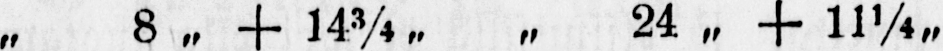„ 8 „ + 14 ¾ „ „ 24 „ + 11¼„
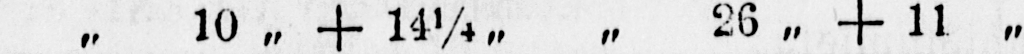„ 10 „ + 14¼„ „ 26 „ + 11 "
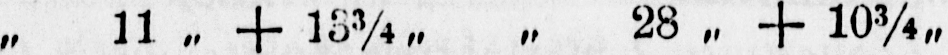„ 11 „ + 13 ¾ „ „ 28 „ + 10 ¾ „
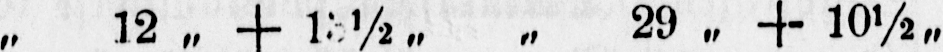„ 12 „ + 13½„ „ 29 „ + 10½ "
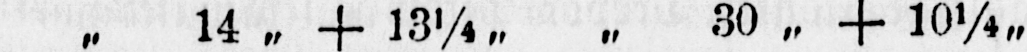„ 14 „ + 13 ¼„ „ 30 „ + 10 ¼ „
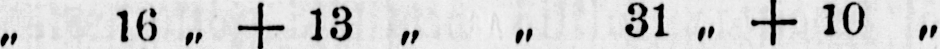„ 16 „ + 13 „ „ 31 „ + 10 „
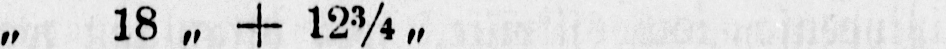„ 18 „ + 12 ¾ „
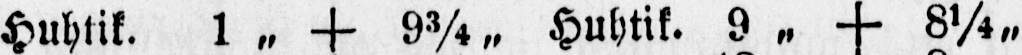Huhtik. 1 „ + 9 „¾ Huhtik. 9 „ + 8¼ „
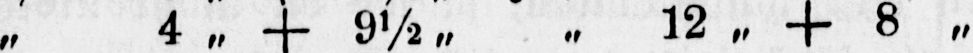„ 4 „ + 9 ½ „ „ 12 „ + 8 „
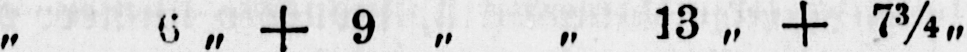„ 6 „ + 9 „ „ 13 „ + 7 ¾ „
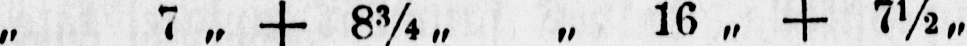„ 7 „ + 8 ¾ „ „ 16 „ + 7½ „
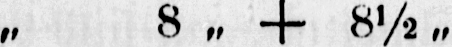„ 8 „ + 8½„
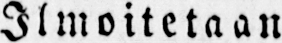Ilmoitetaan
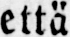että
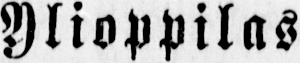Ylioppilas
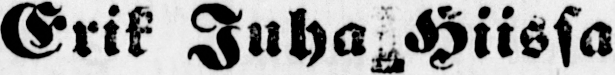Erik Juha Hiissa
